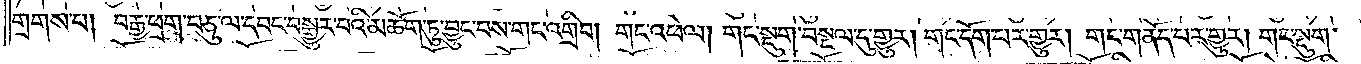གྲགས་པ། བརྒྱ་ཕྲག་བཅུ་ལ་དབང་བསྒྱུར་བའི་མཆོག་ཏུ་བྱུང་བས་གང་འགྲིབ། གང་འཕེལ། གང་སྡུག་བསྔལ་དུ་གྱུར། གང་དོག་པར་གྱུར། གང་གནོད་པར་གྱུར། གང་སྡུག་
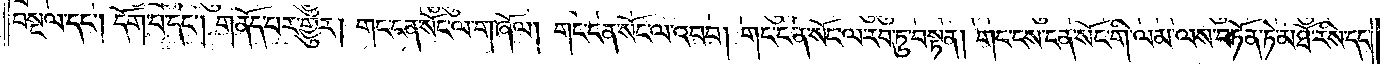བསྔལ་དང༌། དོག་པ་དང༌། གནོད་པར་གྱུར། གང་ངན་སོང་ལ་གཞོལ། གང་ངན་སོང་ལ་འབབ། གང་ངན་སོང་ལ་རབ་ཏུ་བསྟན། གང་ངས་ངན་སོང་གི་ལམ་ལས་བཏོན་ཏེ་མཐོ་རིས་དང་
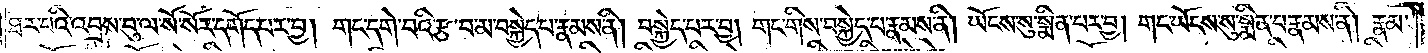ཐར་པའི་འབྲས་བུ་ལ་སོ་སོར་དགོད་པར་བྱ། གང་དགེ་བའི་རྩ་བ་མ་བསྐྱེད་པ་རྣམས་ནི། བསྐྱེད་པར་བྱ། གང་གིས་བསྐྱེད་པ་རྣམས་ནི། ཡོངས་སུ་སྨིན་པར་བྱ། གང་ཡོངས་སུ་སྨིན་པ་རྣམས་ནི། རྣམ་
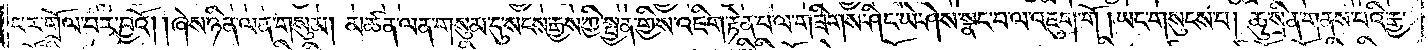པར་གྲོལ་བར་བྱའོ། །ཞེས་ཉིན་ལན་གསུམ། མཚན་ལན་གསུམ་དུ་སངས་རྒྱས་ཀྱི་སྤྱན་གྱིས་འཇིག་རྟེན་པ་ལ་གཟིགས་ཤིང་ཡེ་ཤེས་སྣང་བ་ལ་འཇུག་གོ །ཡང་གསུངས་པ། ཆུ་སྲིན་གནས་པའི་རྒྱ་
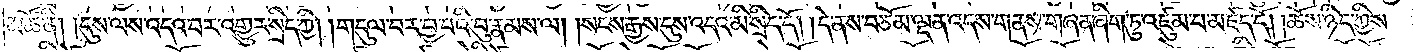མཚོ་ནི། །དུས་ལས་འདའ་བར་འགྱུར་སྲིད་ཀྱི། །གདུལ་བར་བྱ་བའི་བུ་རྣམས་ལ། སངས་རྒྱས་དུས་འདའ་མི་སྲིད་དོ། །དེ་ནས་བཅོམ་ལྡན་འདས་གནས་གཞན་ཞིག་ཏུ་འཛུམ་པ་མཛད་དོ། །ཆོས་ཉིད་ཀྱིས་
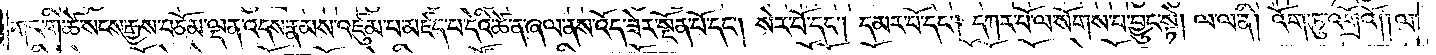གང་གི་ཚེ་སངས་རྒྱས་བཅོམ་ལྡན་འདས་རྣམས་འཛུམ་པ་མཛད་པ་དེའི་ཚེ་ན་ཞལ་ནས་འོད་ཟེར་སྔོན་པོ་དང༌། སེར་པོ་དང༌། དམར་པོ་དང༌། དཀར་པོ་ལ་སོགས་པ་བྱུང་སྟེ། ལ་ལ་ནི། འོག་ཏུ་འགྲོའོ། །ལ་
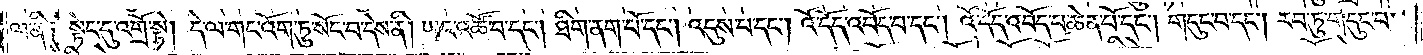ལ་ནི༑ སྟེང་དུ་འགྲོ་སྟེ། དེ་ལ་གང་འོག་ཏུ་སོང་བ་དེས་ནི། ཡང་འཚོ་བ་དང༌། ཐིག་ནག་པོ་དང༌། འདུས་པ་དང༌། འོ་དོད་འབོད་པ་དང༌། འོ་དོད་འབོད་པ་ཆེན་པོ་དང༌། གདུང་བ་དང༌། རབ་ཏུ་གདུང་བ་
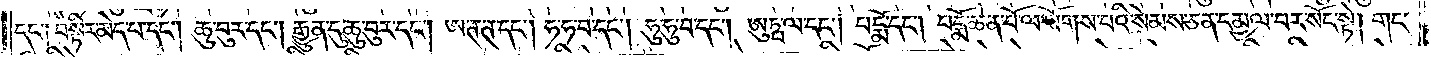དང༌། བསྟིར་མེད་པ་དང༌། ཆུ་བུར་དང༌། རྒྱུན་དུ་ཆུ་བུར་དང༌། ཨ་ཊ་ཊ་དང༌། ཧ་ཧ་བ་དང༌། ཧུ་ཧུ་བ་དང༌། ཨུཏྤ་ལ་དང༌། པདྨོ་དང༌། པདྨོ་ཆེན་པོ་ལ་སོགས་པའི་སེམས་ཅན་དམྱལ་བར་སོང་སྟེ། གང་
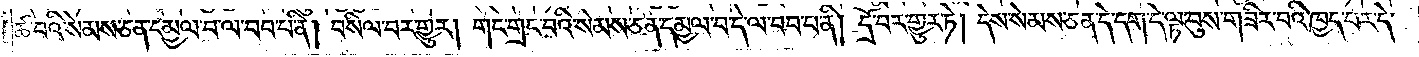ཚ་བའི་སེམས་ཅན་དམྱལ་བ་ལ་བབ་པ་ནི། བསིལ་བར་གྱུར། གང་གྲང་བའི་སེམས་ཅན་དམྱལ་བ་དེ་ལ་བབ་པ་ནི། དྲོ་བར་གྱུར་ཏེ། དེས་སེམས་ཅན་དེ་དག་དེ་ལྟ་བུས་གཟིར་བའི་ཁྱད་པར་དེ་
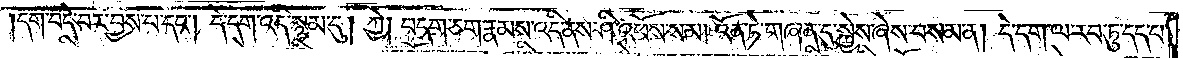དག་བདེ་བར་བྱས་པ་དང༌། དེ་དག་འདི་སྙམ་དུ། ཀྱེ། བདག་ཅག་རྣམས་འདི་ནས་ཤི་འཕོས་སམ། འོན་ཏེ་གཞན་དུ་སྐྱེས་ཞེས་བསམ་ན། དེ་དག་ལ་རབ་ཏུ་དད་པ་
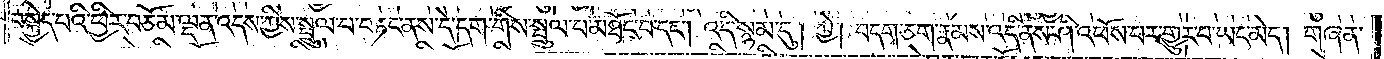བསྐྱེད་པའི་ཕྱིར་བཅོམ་ལྡན་འདས་ཀྱིས་སྤྲུལ་པ་བཏང་ནས་དེ་དག་གིས་སྤྲུལ་པ་མཐོང་བ་དང༌། འདི་སྙམ་དུ། ཀྱེ། བདག་ཅག་རྣམས་འདི་ནས་ཤི་འཕོས་པར་གྱུར་པ་ཡང་མེད། གཞན་
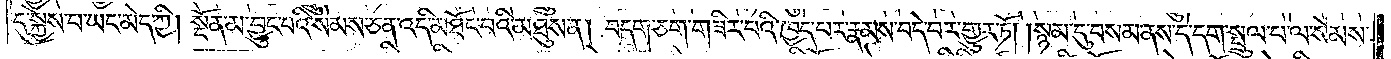དུ་སྐྱེས་པ་ཡང་མེད་ཀྱི། སྔོན་མ་བྱུང་བའི་སེམས་ཅན་འདི་མཐོང་བའི་མཐུས་ན། བདག་ཅག་གཟིར་བའི་ཁྱད་པར་རྣམས་བདེ་བར་གྱུར་ཏོ། །སྙམ་དུ་བསམ་ནས་དེ་དག་སྤྲུལ་པ་ལ་སེམས་
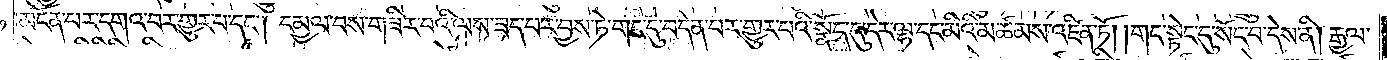མངོན་པར་དགའ་བར་གྱུར་པ་དང༌། དམྱལ་བས་གཟིར་བའི་ལས་ཟད་པར་བྱས་ཏེ་གང་དུ་བདེན་པར་གྱུར་པའི་སྣོད་དུ་དེར་ལྷ་དང་མིའི་མཚམས་འཛིན་ཏོ། །གང་སྟེང་དུ་སོང་བ་དེས་ནི། རྒྱལ་
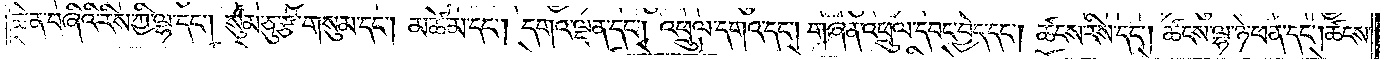ཆེན་བཞིའི་རིས་ཀྱི་ལྷ་དང༌། སུམ་ཅུ་རྩ་གསུམ་དང༌། མཚེ་མ་དང༌། དགའ་ལྡན་དང༌། འཕྲུལ་དགའ་དང༌། གཞན་འཕྲུལ་དབང་བྱེད་དང༌། ཚངས་རིས་དང༌། ཚངས་ལྷ་ཉེ་ཕན་དང༌། ཚངས་
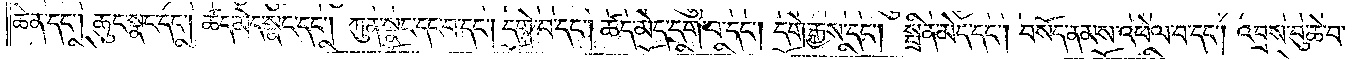ཆེན་དང༌། ཆུང་སྣང་དང༌། ཚད་མེད་སྣང་དང༌། ཀུན་སྣང་དང་བ་དང༌། དགེ་བ་དང༌། ཚད་མེད་དགེ་བ་དང༌། དགེ་རྒྱས་དང༌། སྤྲིན་མེད་དང༌། བསོད་ནམས་འཕེལ་བ་དང༌། འབྲས་བུ་ཆེ་བ་
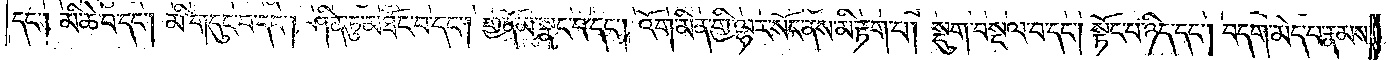དང༌། མི་ཆེ་བ་དང༌། མི་གདུང་བ་དང༌། ཤིན་ཏུ་མཐོང་བ་དང༌། གྱ་ནོམ་སྣང་བ་དང༌། འོག་མིན་གྱི་ལྷར་སོང་ནས་མི་རྟག་པ། སྡུག་བསྔལ་བ་དང༌། སྟོང་པ་ཉིད་དང༌། བདག་མེད་པ་རྣམས་
